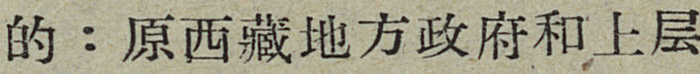的：原西藏地方政府和上层
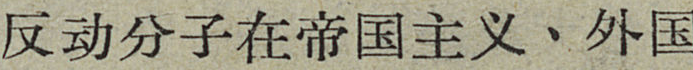反动分子在帝国主义、外国
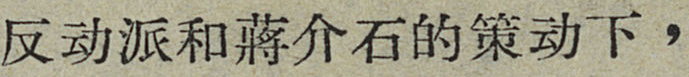反动派和蒋介石的策动下，
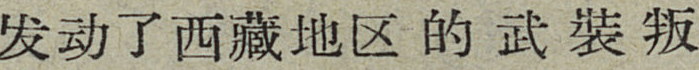发动了西藏地区的武装叛
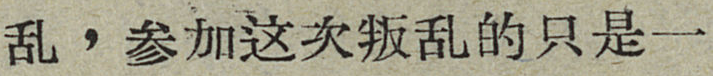乱，参加这次叛乱的只是一
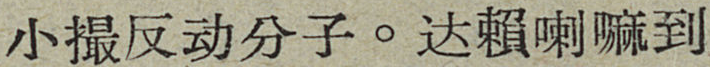小撮反动分子。达賴喇嘛到
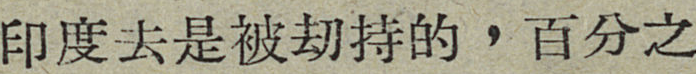印度去是被劫持的，百分之
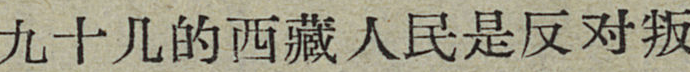九十几的西藏人民是反对叛
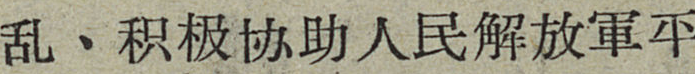乱、积极协助人民解放軍平
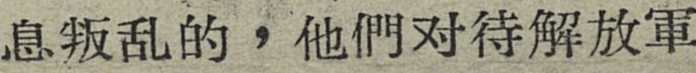息叛乱的，他們对待解放軍
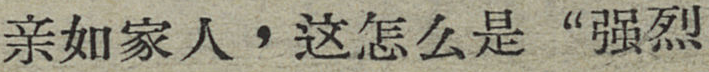亲如家人，这怎么是“强烈
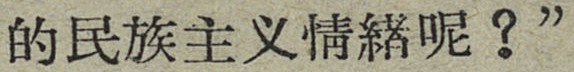的民族主义情緒呢？”
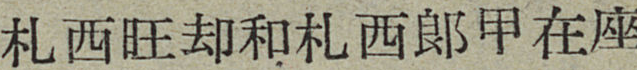札西旺却和札西郎甲在座
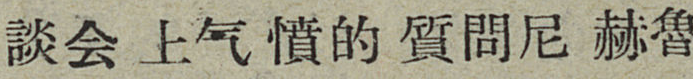談会上气憤的質問尼赫魯
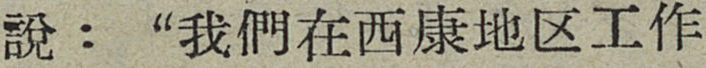說：“我們在西康地区工作
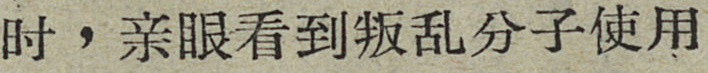时，亲眼看到叛乱分子使用
